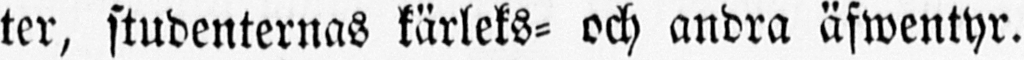ter, studenternas kärleks- och andra äfwentyr.
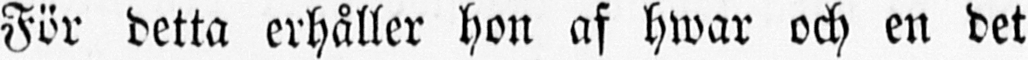För detta erhåller hon af hwar och en det
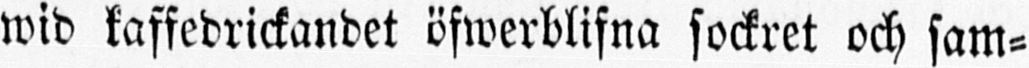wid kaffedrickandet öfwerblifna sockret och sam-
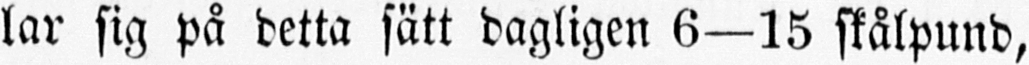lar sig på detta sätt dagligen 6—15 skålpund,
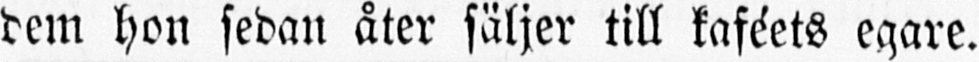dem hon sedan åter säljer till kaféets eqare.
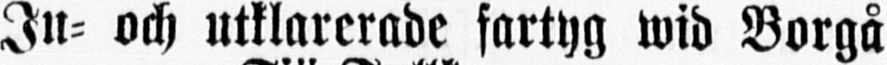In- och utklarerade fartyg wid Borgå
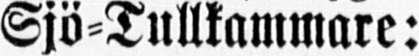Sjö-Tullkammare:
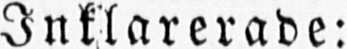Inklarerade:
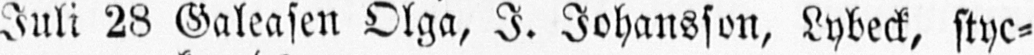Juli 28 Galeasen Olga, I. Johansson, Lybeck, styc-
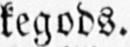kegods.
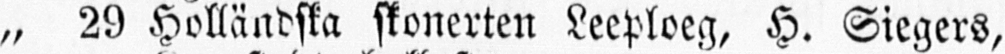„ 29 Holländska skonerten Leeploeg, H. Siegers,
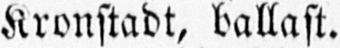Kronstadt, ballast.
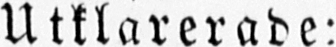Utklarerade:
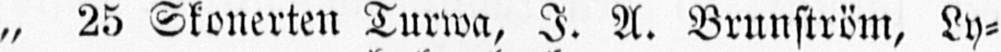„ 25 Skonerten Turwa, I. A. Brunström, Ly-
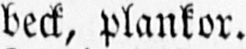beck, plankor.
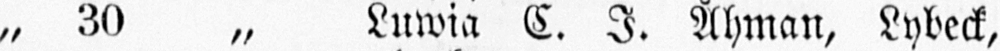„ 30 „ Luwia C. I. Åhman, Lybeck,
